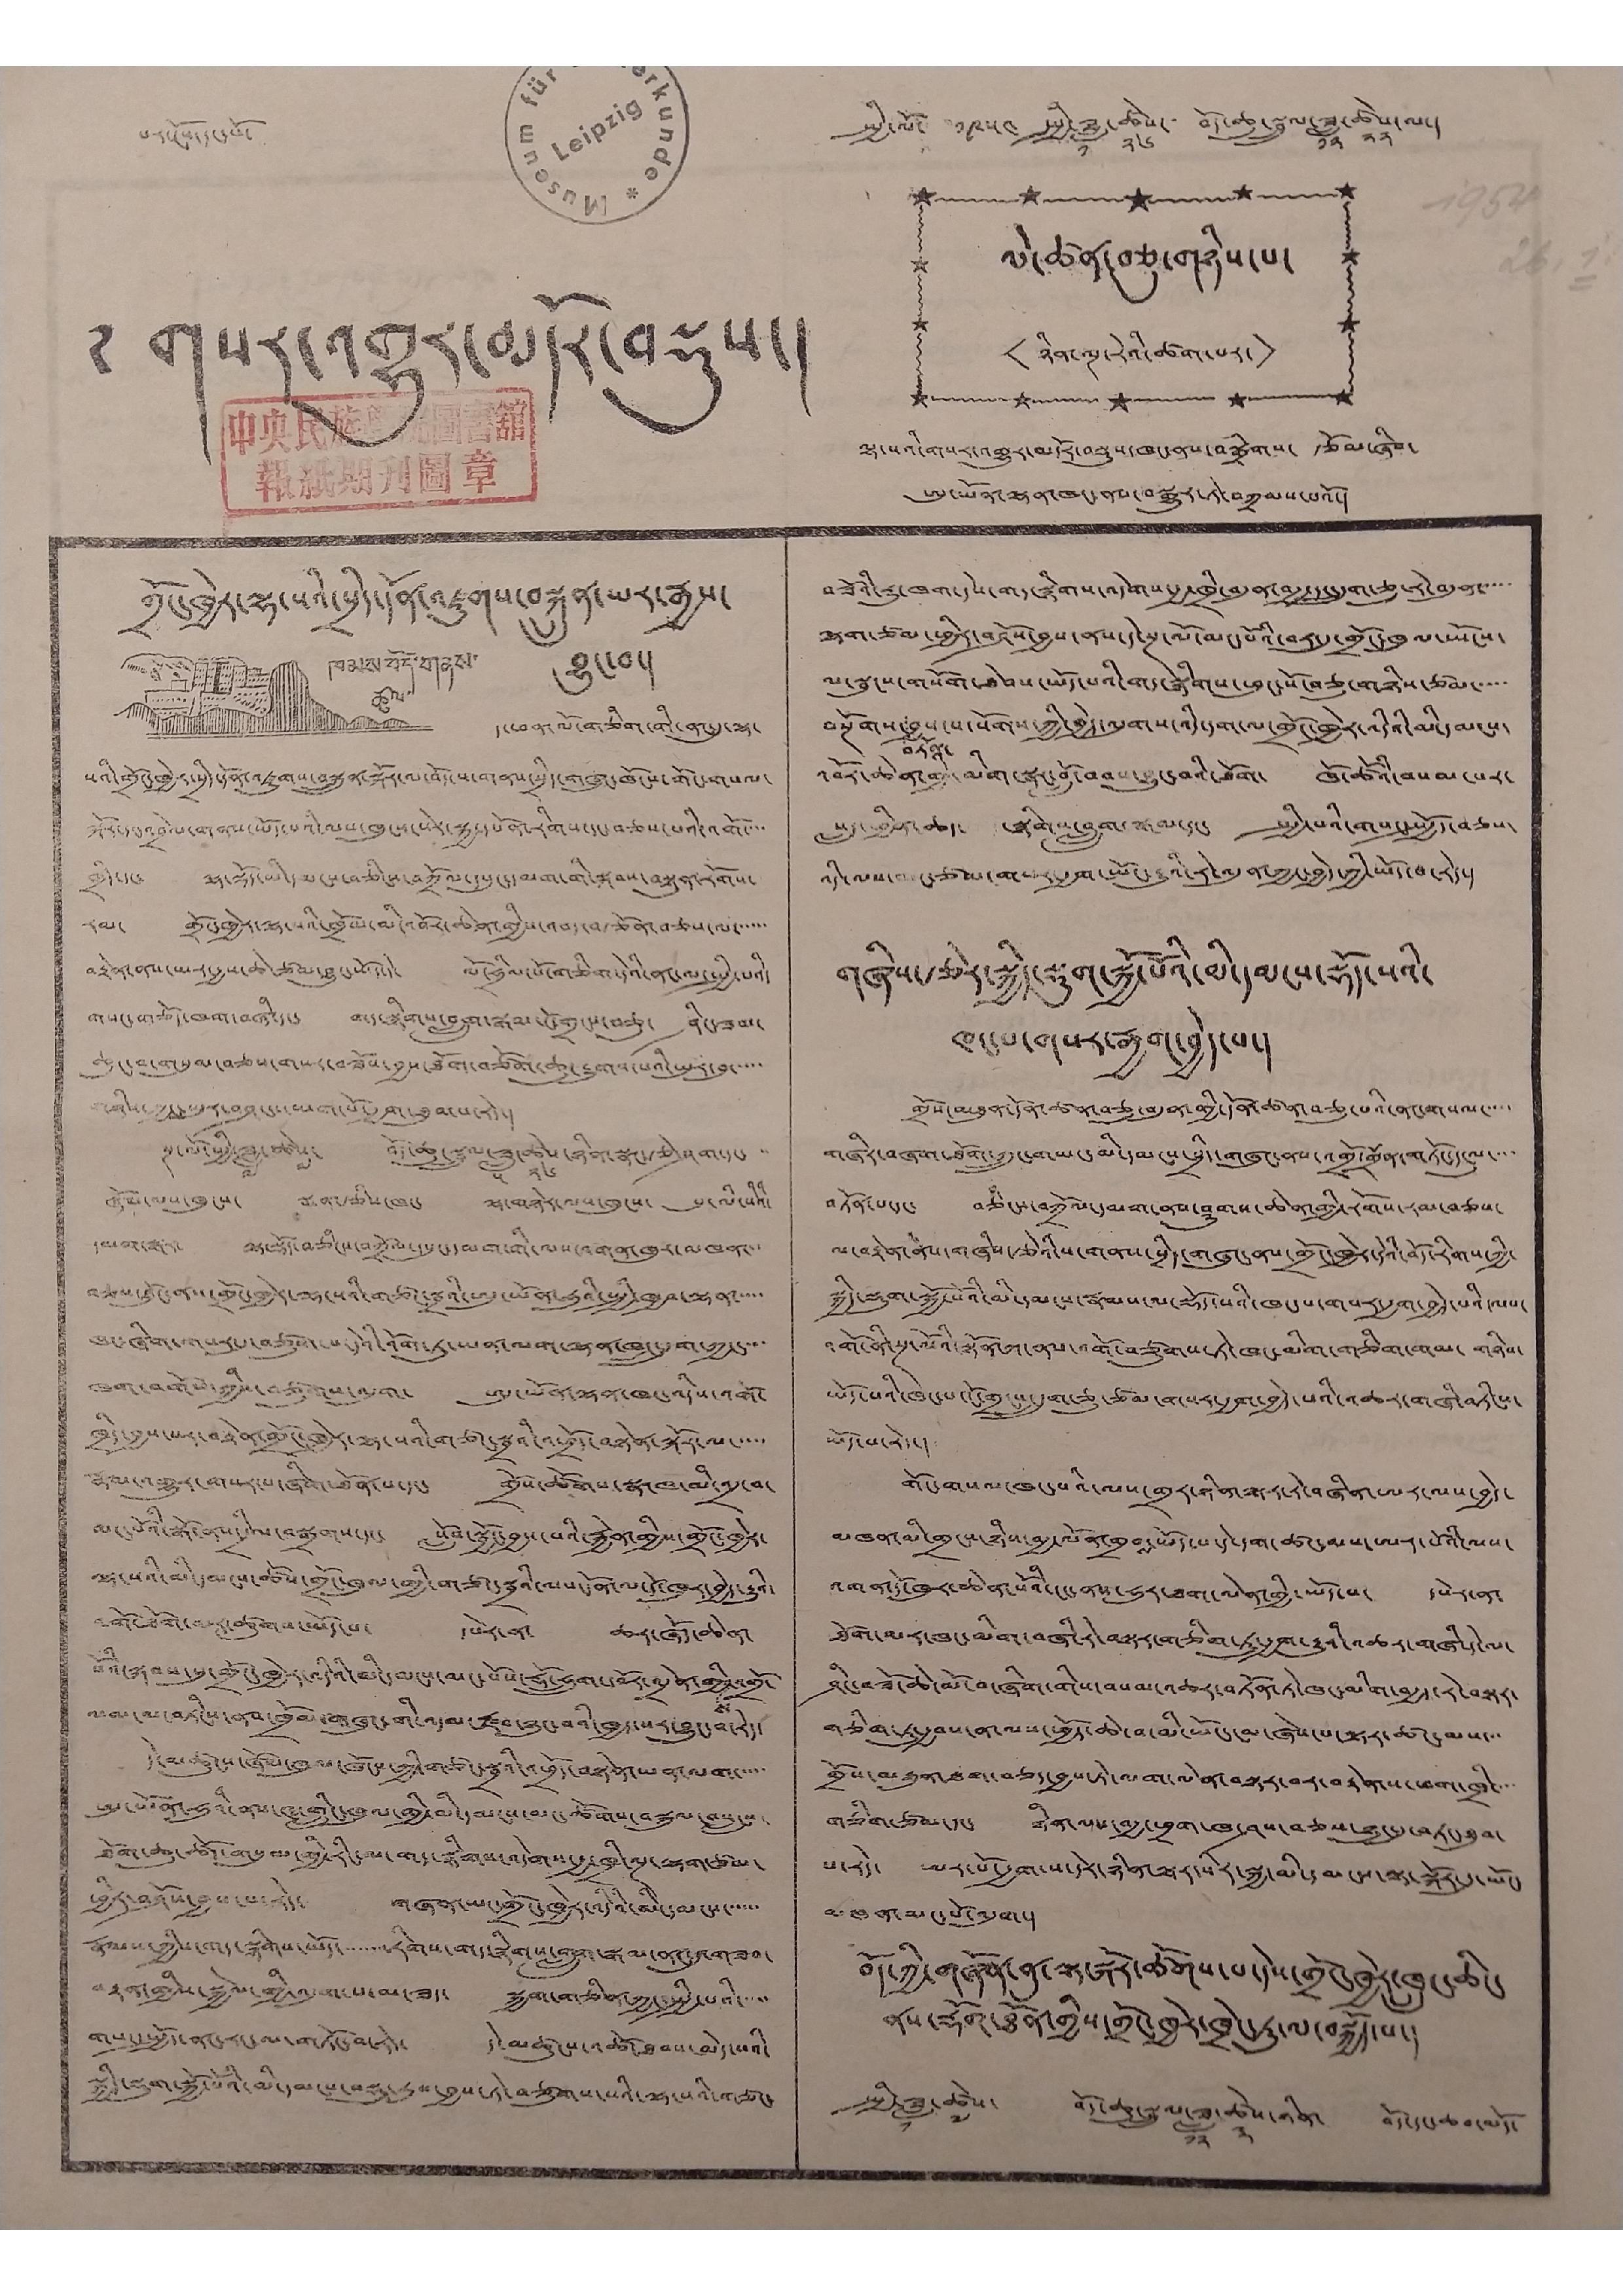པར་ངོད་དང་པོ་ སྤྱི་ལོ་ ༡༩༥༤ སྤྱི་ཟླ་
༡
ཚེས་
༢༦
བོད་ཆུ་སྦྲུལ་ཟླ་
༡༢
ཚེས་
༢༢
ལ་།
༅ གསར་འགྱུར་མདོར་བསྡུས་།
ལེ་ཚན་བཅུ་གཉིས་པ་
<ཉིན་ལྔ་རེའི་ཚགས་པར་>
ལྷ་སའི་གསར་འགྱུར་མདོར་བསྡུས་ཁང་ནས་བསྒྲིགས་ རྩོམ་ཞིབ་
ཨུ་ཡོན་ལྷན་ཁང་ནས་བསྒྱུར་ཏེ་བཀྲམས་པའོ་།
ཁམས་བོད་གནས་
ཚུལ་
གྲོང་ཁྱེར་ལྷ་སའི་སྲིད་དོན་འཛུགས་བསྐྲུན་ཡར་རྒྱས་
བྱུང་བ་།
ད་ཕན་ལོ་གཅིག་གི་ནང་དུ་ལྷ་
སའི་གྲོང་ཁྱེར་སྲིད་དོན་འཛུགས་བསྐྲུན་སྐོར་ལ་བོད་ས་གནས་སྲིད་གཞུང་ཁོངས་གོང་གསལ་
སྐོར་དང་འབྲེལ་གནས་ཡོད་པའི་ལས་ཁུངས་སེར་སྐྱ་དཔོན་རིགས་དང་བཅས་པའི་འགོ་་་་
ཁྲིད་དང་ ལྟ་སྡོད་མི་དམངས་བཅིངས་བཀྲོལ་དཔུང་དམག་གི་སྐབས་བསྟུན་རོགས་
རམ་ གྲོང་ཁྱེར་ལྷ་སའི་ཁྲོམ་མི་འབོར་ཆེན་གྱིས་འབད་བརྩོན་བཅས་ལ་་་་་་
བརྟེན་ནས་ཡར་རྒྱས་ཆེ་ཙམ་བྱུང་ཡོད་དེ་ ལོ་ཧྲིལ་པོ་གཅིག་དེའི་ནང་ལ་སྤྱི་པའི་
གསང་བཅོད་ཁག་བཞི་དང་ གད་སྙིགས་བླུག་སྒམ་ངོ་གྲངས་བཅུ་ ཤིང་ཟམ་
ཆུང་བ་གསུམ་བཅས་གསར་བཟོས་བྱས་ཐོག་བཙོག་ཆུ་རྒྱུགས་པའི་ཡུར་བུ་་་་་
གཉིས་ཀྱང་ཡུར་བཤང་ཡག་པོ་རྒྱག་ཐུབ་པ་རེད་།
སྔ་ལོ་སྤྱི་ཟླ་༧་ཚེས་༧་ བོད་ཆུ་སྦྲུལ་ཟླ་༥་ཚེས་༢༦་ཉིན་སྣང་རྩེ་ཤག་དང་
ཞོམ་ལས་ཁུངས་ སྨན་རྩིས་ཁང་ ལྟ་གཉེར་ལས་ཁུངས་ པུ་ལི་སིའི་
དམག་སྒར་ ལྟ་སྡོད་བཅིངས་བཀྲོལ་དཔུང་དམག་གི་ལས་འགན་ཁུར་མཁན་་
བཅས་ཐོུང་ནས་གྲོང་ཁྱེར་ལྷ་སའི་གཙང་སྦྲའི་ཨུ་ཡོན་ཧུའི་སྤྱི་ཁྱབ་ལྷན་་་་་
ཁང་ཞིག་གསར་དུ་བཙུགས་པ་དེའི་འོག་ཏུ་ཡན་ལག་ལྷན་ཁང་དྲུག་ཀྱང་་་་
ཁག་བགོས་ཀྱིས་བཙུགས་འདུག་ ཨུ་ཡོན་ལྷན་ཁང་འདིས་འགོ་
ཁྲིད་བྱས་པར་བརྟེན་གྲོང་ཁྱེར་ལྷ་སའི་གཙང་སྦྲའི་འཕྲོད་བསྟེན་སྐོར་ལ་་་་་
རྣམ་འགྱུར་གསར་པ་ཞིག་ཐོན་པ་དང་ གྲོས་ཚོགས་སྣ་ཁ་མི་འདྲ་བ་
མང་པོའི་སྒོ་ནས་དྲིལ་བསྒྲགས་དང་ སློབ་སྦྱོང་བྱས་པའི་རྐྱེན་གྱིས་གྲོང་ཁྱེར་
ལྷ་སའི་མི་དམངས་ཚོས་གྲོང་ཁུལ་གྱི་གཙང་སྦྲའི་ལས་དོན་ལ་དོ་ཁུར་བྱེད་རྒྱུའི་
འགོ་ཐོག་མར་ཚུགས་ཡོད་པ་ དཔེར་ན་ ཆར་ཞོད་ཆེན་
པོའི་སྐབས་སུ་གྲོང་ཁྱེར་འདིའི་མི་དམངས་མང་པོས་རྡོ་ཧྲུག་དབོར་འདྲེན་གྱི
ས
་འགྲོ་
ལམ་ལ་བཏིངས་ནས་ཁྲོམ་གཞུང་གི་འདམ་རྫབ་ཉུང་བའི་ཁྱད་པར་བྱུང་བ་རེད་
དེ་མཚུངས་ཞོལ་ཁུལ་ཁོངས་ཀྱི་གཙང་སྦྲའི་འཕྲོད་བསྟེན་ཡན་ལག་་་་་
ཨུ་ཡོན་ཧུའི་ནས་ཝ་གླིང་ཁུལ་གྱི་མི་དམངས་མང་ཚོགས་བསྐུལ་བསླངས་
ཐོག་ཆུ་ཚོད་གསུམ་གྱི་རིང་ལ་གད་སྙིགས་འདེགས་རྒྱ་ཁྲི་ལྔ་ལྷག་ཙམ་
ཕྱིར་བཤོས་བྱས་པ་རེད་ གཞན་ཡང་གྲོང་ཁྱེར་འདིའི་མི་དམངས་་་་་་
རྣམས་ཀྱིས་གད་སྙིགས་ཡོད་་་་་་་རིགས་གད་སྙིགས་གླུགས་སྒམ་ནང་དུ་གཟབ་
རྟན་གྱིས་སྐྱེལ་གྱི་འདུག་པ་མ་ཟད་ སྐྱག་གཅིན་ཀྱང་སྤྱི་པའི་་་་
གསང་སྤྱོད་ནང་རང་ལ་གཏོང་བ་རེད་ དེ་མཚུངས་འཚོ་ཐབས་མེད་པའི་
སྐྱིད་སྡུག་སྐྱོ་པོའི་མི་དམངས་བསྡུ་རུས་བྱས་ཏེ་བཙུགས་པའི་གཙང་
བཟོའི་རུ་ཁག་དེས་གད་སྙིགས་འདེགས་རྒྱ་ཁྲི་བདུན་བརྒྱ་དང་དྲུག་ཅུ་རེ་བདུན་་་་་
ལྷག་ཙམ་ཕྱིར་བཤོས་བྱས་ནས་དེ་སྔ་ལོ་མང་པོའི་བར་དུ་གྲོང་ཁུལ་ཡོངས་
ལ་སྦུངས་བྱས་པ་སོགས་ཐེབས་ཡོད་པའི་གད་སྙིགས་ཕུང་པོ་བཅུ་གཉིས་ཙམ་་་་་
བསྔོགས་
བཏོན་
བྱས་པ་སོགས་ཀྱི་གྱེད་ལུགས་འདི་དག་ལ་གྲོང་ཁྱེར་འདིའི་མི་དམངས་
འབོར་ཆེན་གྱི་མིག་སྣང་བློ་བབས་བྱུང་བའི་ཐོག་ ཁོ་ཚོའི་བསམ་པར་
སླར་ཕྱིན་ཆད་ སྙིགས་བླུགས་སྒམ་དང་ སྤྱི་པའི་གསང་སྤྱོད་བཅས་
འདི་ལས་མང་ཙམ་གསར་རྒྱག་ཡོང་རྒྱུའི་རེ་འདུན་ཀྱང་བྱེད་ཀྱི་ཡོད་པ་རེད་།
གཞིས་རྩེར་སྐྱིད་སྡུག་སྐྱོ་པོའི་མི་དམངས་སྡོད་པའི་
ཁང་པ་གསར་རྒྱག་བྱེད་པ་།
གྲོས་མཐུན་དོན་ཚན་བཅུ་བདུན་གྱི་དོན་ཚན་བཅུ་པའི་ནང་གསལ་ལ་་་་་
གཞིར་བཞག་ཐོག་ཀྲུང་གཡང་མི་དམངས་སྲིད་གཞུང་ནས་འགྲོ་གྲོན་གཏོང་དངུལ་་་་
བཏོན་པ་དང་ བཅིངས་བཀྲོལ་དམག་ནས་ཤུགས་ཆེན་གྱི་རོགས་རམ་བཅས་
ལ་བརྟེན་ནས་གཞིས་རྩེའི་ས་གནས་སྲིད་གཞུང་ནས་གྲོང་ཁྱེར་དེའི་བོད་རིགས་ཀྱི་
སྐྱིད་སྡུག་སྐྱོ་པོའི་མི་དམངས་རྣམས་ལ་སྡོད་པའི་ཁང་པ་གསར་རྒྱག་བྱེད་པའི་ལས་
འགོ་ནི་སྔ་ལོའི་སྟོན་ཀ་ནས་འགོ་བཙུགས་ཏེ་ཁང་མིག་གཅིག་གམ་ གཉིས་
ཡོད་པའི་ཁང་པ་ངོ་གྲངས་དྲུག་ཅུ་ཙམ་གསར་རྒྱག་བྱེད་པའི་འཆར་གཞི་བཏིངས་
ཡོད་པ་རེད་།
གོང་གསལ་ཁང་པའི་ལས་གྲར་ཉིན་ལྟར་རེ་བཞིན་ཨར་ལས་བྱེད་
མཁན་མི་གྲངས་ཉིས་བརྒྱ་ལོན་གྲབ་ཡོད་པ་དེ་དག་ཚང་མས་ཨར་པོའི་ལས་
ས
འགན་དོ་ཁུར་ཆེན་པོའི་ངང་ནས་ཧུར་ཐག་ལེན་གྱི་ཡོད་པ་ དཔེར་ན་
ཐོག་མར་ཁང་མིག་བཞི་རེ་བལྟར་གཅིག་ཏུ་རྒྱག་རྒྱུའི་འཆར་གཞི་དེ་ལ་
ཤིང་བཟོ་ཆེ་མོ་བ་ཞིག་གིས་བསམ་འཆར་བཏོན་ཏེ་ཁང་མིག་བརྒྱད་རེ་བསྟར་
གཅིག་ཏུ་རྒྱབས་ན་ལས་ཕྱོད་ཆེ་བ་མི་ཡོང་ངམ་ཞེས་པ་ལྟར་ཚང་མས་་་
གྲོས་མཐུན་ཐག་བཅད་བྱས་ཏེ་ལག་ལེན་བསྟར་བར་བརྟེན་ས་ཕག་ཁྲི་
གཅིག་ཙམ་དང་ ཉིན་ལས་བརྒྱ་ཕྲག་ཁ་ཤས་བཅས་ཉུང་དུ་བཏང་ཐུབ་
པ་རེད་ ཨར་པོ་རྒྱག་ས་དེར་ཉིན་ལྟར་སེར་སྐྱ་མི་དམངས་ལྟ་སྐོར་དུ་ཡོང་
མཁན་མང་པོ་འདུག་།
བོད་ཀྱི་གཞོན་ནུ་ལྟ་སྐོར་ཚོགས་པ་དེས་གྲོང་ཁྱེར་ཁྲུང་ཆིང་
ནས་རྡོག་ཐོན་གྱིས་གྲོང་ཁྱེར་ཁྲེང་ཏུ་ལ་བསྐྱོད་པ་།
སྤྱི་ཟླ་
༡
ཚེས་
༧
བོད་ཆུ་སྦྲུལ་ཟླ་
༡༢
ཚེས་
༣
ཉིན་ བོད་དང་ཆབ་མདོ་
